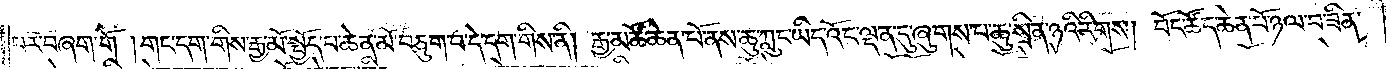པར་བཞག་གོ །གང་དག་གིས་རྒྱ་མཚོ་སྤྱོད་པ་ཆེན་མོ་བཅུག་པ་དེ་དག་གིས་ནི། རྒྱ་མཚོ་ཆེན་པོ་ནས་ཆུ་ཀླུང་ཡིད་འོང་ལྡན་དུ་ཞུགས་པ་ཆུ་སྲིན་ཉའི་རིགས། བོང་ཚོད་ཆེན་པོ་ཉལ་བ་ཟིན་
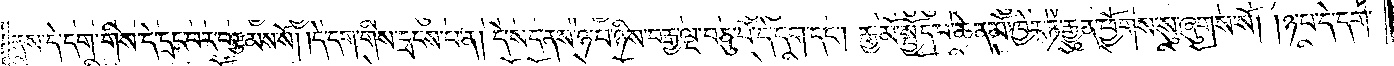ནས་དེ་དག་གིས་དེ་དྲང་བར་བརྩམས་སོ། །དེ་དག་གིས་དྲངས་པ་ན། དེ་སད་ནས་ཉ་པ་ཉིས་བརྒྱ་ལྔ་བཅུ་པོ་དེ་དག་དང༌། རྒྱ་མོ་སྤྱོད་པ་ཆེན་མོ་ཁྱེར་ཏེ་རྒྱུན་ཕྱོགས་སུ་ཞུགས་སོ། །ཉ་པ་དེ་དག་
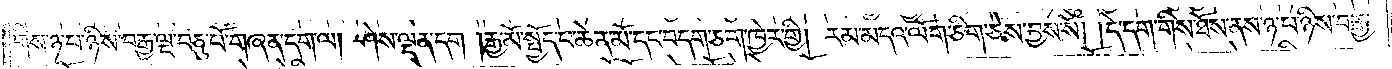གིས་ཉ་པ་ཉིས་བརྒྱ་ལྔ་བཅུ་པོ་གཞན་དག་ལ། ཤེས་ལྡན་དག །རྒྱ་མོ་སྤྱོད་པ་ཆེན་མོ་དང་བདག་ཅག་ཁྱེར་གྱི། རམ་མདའ་ལོག་ཅིག་ཅེས་བྱས་སོ། །དེ་དག་གིས་ཐོས་ནས་ཉ་པ་ཉིས་བརྒྱ་
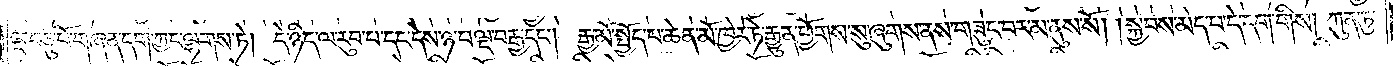ལྔ་བཅུ་པོ་གཞན་དག་ཀྱང་ལྷགས་ཏེ། དེ་ཉིད་ལ་རུབ་པ་དང་དེས་ཉ་པ་ལྔ་བརྒྱ་དང༌། རྒྱ་མོ་སྤྱོད་པ་ཆེན་མོ་ཁྱེར་ཏེ་རྒྱུན་ཕྱོགས་སུ་ཞུགས་ནས་གཟུང་བར་མ་ནུས་སོ། །སྐྱབས་མེད་པ་དེ་དག་གིས། ཀུན་ཏུ་
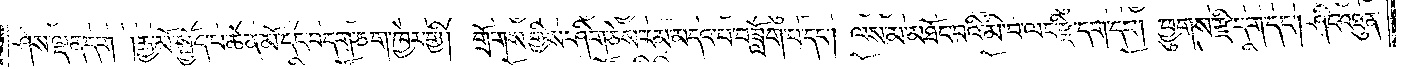ཤེས་ལྡན་དག །རྒྱ་མོ་སྤྱོད་པ་ཆེན་མོ་དང་བདག་ཅག་ཁྱེར་གྱི། གྲོགས་གྱིས་ཤིག་ཅེས་རམ་མདའ་བ་བཟློག་པ་དང༌། ལས་མ་མཐོང་བའི་མི་བ་ལང་རྫི་དག་དང༌། ཕྱུགས་རྫི་དག་དང༌། ཤིང་འཐུན་
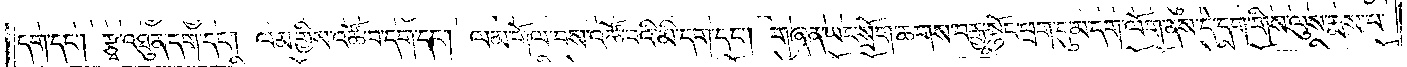དག་དང༌། རྩྭ་འཐུན་དག་དང༌། ལམ་གྱིས་འཚོ་བ་དག་དང༌། ལམ་གོལ་བས་འཚོ་བའི་མི་དག་དང༌། གཞན་ཡང་སྲོག་ཆགས་བརྒྱ་སྟོང་ཕྲག་དུ་མ་དག་ལོག་ནས་དེ་དག་གིས་ལུས་རྨས་པ་
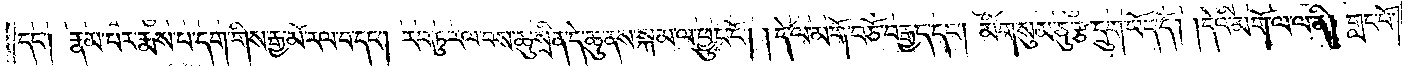དང༌། རྣམ་པར་རྨས་པ་དག་གིས་རྒྱ་མོ་རལ་པ་དང༌། རབ་ཏུ་རལ་པས་ཆུ་སྲིན་དེ་ཆུ་ནས་སྐམ་ལ་ཕྱུང་ངོ༌། །དེ་ལ་མགོ་བཅོ་བརྒྱད་དང༌། མིག་སུམ་ཅུ་རྩ་དྲུག་ཡོད་དོ། །དེའི་མགོ་ལ་ལ་ནི། གླང་པོ་
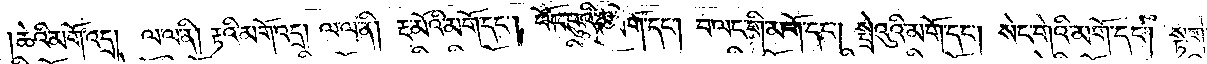ཆེའི་མགོ་འདྲ། ལ་ལ་ནི། རྟའི་མགོ་འདྲ། ལ་ལ་ནི། རྔ་མོའི་མགོ་དང༌། བོང་བུའི་མགོ་དང༌། བ་ལང་གི་མགོ་དང༌། སྤྲེའུའི་མགོ་དང༌། སེང་གེའི་མགོ་དང༌། སྟག་
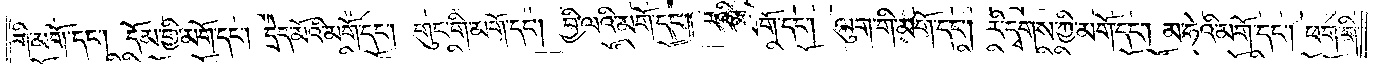གི་མགོ་དང༌། དོམ་གྱི་མགོ་དང༌། དྲེད་མོའི་མགོ་དང༌། གུང་གི་མགོ་དང༌། བྱི་ལའི་མགོ་དང༌། རའི་མགོ་དང༌། ལུག་གི་མགོ་དང༌། རི་དྭགས་ཀྱི་མགོ་དང༌། མ་ཧེའི་མགོ་དང༌། ཕག་གི་
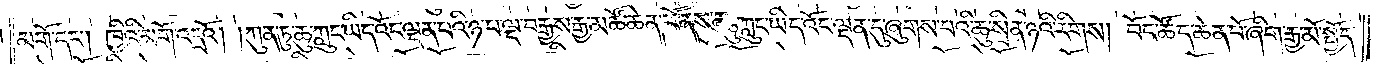མགོ་དང༌། ཁྱིའི་མགོ་འདྲའོ། །ཀུན་ཏུ་ཆུ་ཀླུང་ཡིད་འོང་ལྡན་པའི་ཉ་པ་ལྔ་བརྒྱས་རྒྱ་མཚོ་ཆེན་པོ་ནས་ཆུ་ཀླུང་ཡིད་འོང་ལྡན་དུ་ཞུགས་པའི་ཆུ་སྲིན་ཉའི་རིགས། བོང་ཚོད་ཆེན་པོ་ཞིག་རྒྱ་མོ་སྤྱོད་
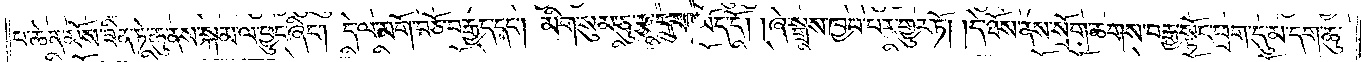པ་ཆེན་མོས་ཟིན་ཏེ་ཆུ་ནས་སྐམ་ལ་ཕྱུང་ཞིང༌། དེ་ལ་མགོ་བཅོ་བརྒྱད་དང༌། མིག་སུམ་ཅུ་རྩ་དྲུག་ཡོད་དོ། །ཞེ་སྒྲས་ཁྱབ་པར་གྱུར་ཏོ། །དེ་ཐོས་ནས་སྲོག་ཆགས་བརྒྱ་སྟོང་ཕྲག་དུ་མ་དག་ཆུ་
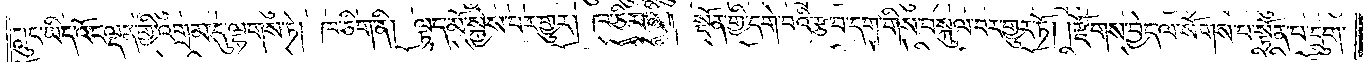ཀླུང་ཡིད་འོང་ལྡན་གྱི་འགྲམ་དུ་ལྷགས་ཏེ། ཁ་ཅིག་ནི། ལྟད་མོ་སྐྱེས་པར་གྱུར། ཁ་ཅིག་ནི། སྔོན་གྱི་དགེ་བའི་རྩ་བ་དག་གིས་བསྐུལ་བར་གྱུར་ཏོ། །རྫོགས་བྱེད་ལ་སོགས་པ་སྟོན་པ་དྲུག་
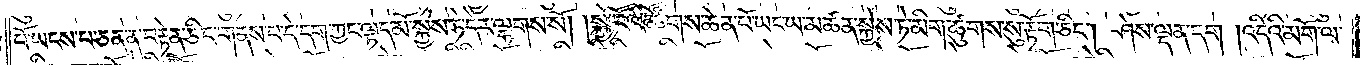པོ་ཡངས་པ་ཅན་ན་བརྟེན་ཅིང་གནས་པ་དེ་དག་ཀྱང་ལྟད་མོ་སྐྱེས་ཏེ་དེར་ལྷགས་སོ། །སྐྱེ་བོའི་ཚོགས་ཆེན་པོ་ཡང་ཡ་མཚན་སྐྱེས་ཏེ་མིག་ཚུགས་སུ་རྟོག་ཅིང༌། ཤེས་ལྡན་དག །འདིའི་མགོ་ལ་
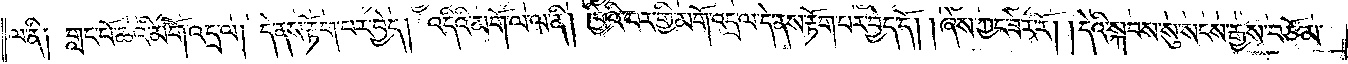ལ་ནི། གླང་པོ་ཆེའི་མགོ་འདྲ་ལ། དེ་ནས་རྟོག་པར་བྱེད། འདིའི་མགོ་ལ་ལ་ནི། ཁྱིའི་བར་གྱི་གོ་འདྲལ་དེ་ནས་རྟོག་པར་བྱེད་དོ། །ཞེས་ཀྱང་ཟེར་རོ། །དེའི་སྐབས་སུ་སངས་རྒྱས་བཅོམ་
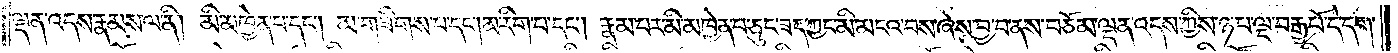ལྡན་འདས་རྣམས་ལ་ནི། མི་མཁྱེན་པ་དང༌། མ་གཟིགས་པ་དང༌། མ་རིག་པ་དང༌། རྣམ་པར་མི་མཁྱེན་པ་ཅུང་ཟད་ཀྱང་མི་མངའ་བས་ཞེས་བྱ་བ་ནས་བཅོམ་ལྡན་འདས་ཀྱིས་ཉ་པ་ལྔ་བརྒྱ་པོ་དེ་དག་
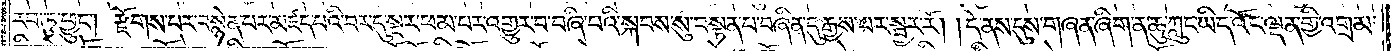རབ་ཏུ་ཕྱུང༌། རྫོགས་པར་བསྙེན་པར་མཛད་པའི་བར་དུ་སྔར་ཕམ་པར་འགྱུར་བ་བཞི་པའི་སྐབས་སུ་བསྟན་པ་བཞིན་དུ་རྒྱས་པར་སྦྱར་རོ། །དེ་ནས་དུས་གཞན་ཞིག་ན་ཆུ་ཀླུང་ཡིད་འོང་ལྡན་གྱི་འགྲམ་
